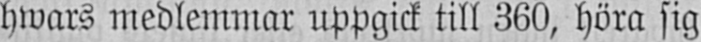hwars medlemmar uppgick till 360, höra sig
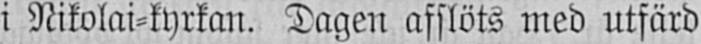i Nikolai-kyrkan. Dagen afslöts med utfärd
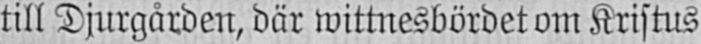till Djurgården, där wittnesbördet om Kristus
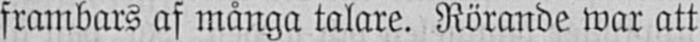frambars af många talare. Rörande war att
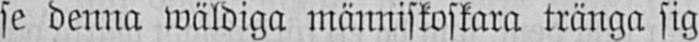se denna wäldiga människoskara tränga sig
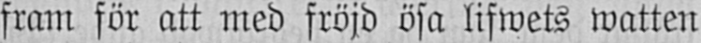fram för att med fröjd ösa lifwets watten
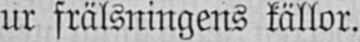ur frälsningens källor.
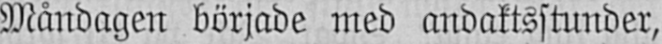Måndagen började med andaktsstunder,
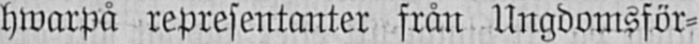hwarpå representanter från Ungdomsför-
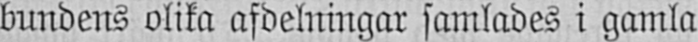bundens olika afdelningar samlades i gamla
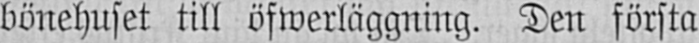bönehuset till öfwerläggning. Den första
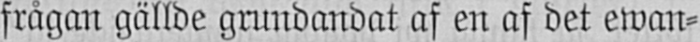frågan gällde grundandat af en af det ewan-
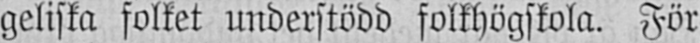geliska folket understödd folkhögskola. För
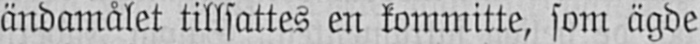ändamålet tillsattes en kommitte, som ägde
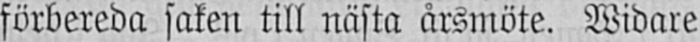förbereda saken till nästa årsmöte. Widare
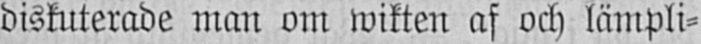diskuterade man om wikten af och lämpli-
